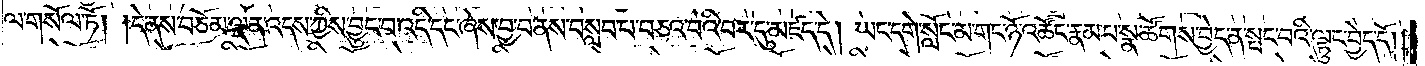ལ་གསོལ་ཏོ། །དེ་ནས་བཅོམ་ལྡན་འདས་ཀྱིས་བྱུང་བ་འདི་དང་ཞེས་བྱ་བ་ནས་བསླབ་པ་བཅའ་བའི་བར་དུ་མཛད་དེ། ཡང་དགེ་སློང་མ་གང་ཉོ་འཚོང་རྣམ་པ་སྣ་ཚོགས་བྱེད་ན་སྤང་བའི་ལྟུང་བྱེད་དོ། །
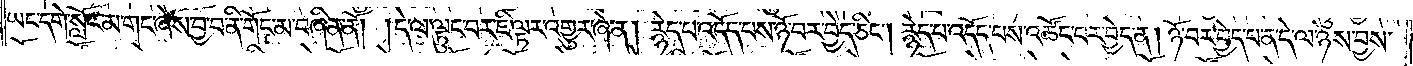ཡང་དགེ་སློང་མ་གང་ཞེས་བྱ་བ་ནི་གོང་མ་བཞིན་ནོ། །དེ་ལ་ལྟུང་བར་ཇི་ལྟར་འགྱུར་ཞེ་ན། རྙེད་པ་འདོད་པས་ཉོ་བར་བྱེད་ཅིང༌། རྙེད་པ་འདོད་པས་འཚོང་བར་བྱེད་ན། ཉོ་བར་བྱེད་པ་ན་དེ་ལ་ཉེས་བྱས་
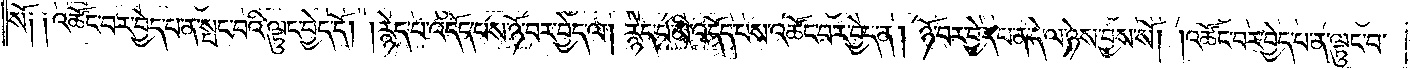སོ༑ ༑འཚོང་བར་བྱེད་པ་ན་སྤང་བའི་ལྟུང་བྱེད་དོ། །རྙེད་པ་འདོད་པས་ཉོ་བར་བྱེད་ལ། རྙེད་པ་མི་འདོད་པས་འཚོང་བར་བྱེད་ན། ཉོ་བར་བྱེད་པ་ན་དེ་ལ་ཉེས་བྱས་སོ། །འཚོང་བར་བྱེད་པ་ན་ལྟུང་བ་
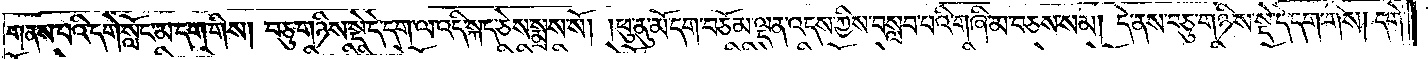གནས་པའི་དགེ་སློང་མ་དག་གིས། བཅུ་གཉིས་སྡེ་དེ་དག་ལ་འདི་སྐད་ཅེས་སྨྲས་སོ། །ཕུ་ནུ་མོ་དག་བཅོམ་ལྡན་འདས་ཀྱིས་བསླབ་པའི་གཞི་མ་བཅས་སམ། དེ་ནས་བཅུ་གཉིས་སྡེ་དེ་དག་གིས། དགེ་
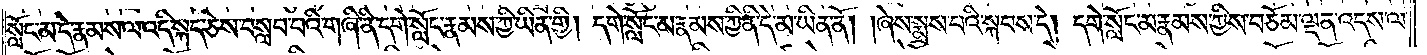སློང་མ་དེ་རྣམས་ལ་འདི་སྐད་ཅེས་བསླབ་པའི་གཞི་ནི་དགེ་སློང་རྣམས་ཀྱི་ཡིན་གྱི། དགེ་སློང་མ་རྣམས་ཀྱི་ནི་དེ་མ་ཡིན་ནོ། །ཞེས་སྨྲས་པའི་སྐབས་དེ། དགེ་སློང་མ་རྣམས་ཀྱིས་བཅོམ་ལྡན་འདས་ལ་
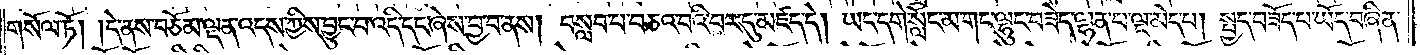གསོལ་ཏོ། །དེ་ནས་བཅོམ་ལྡན་འདས་ཀྱིས་བྱུང་བ་འདི་དང་ཞེས་བྱ་བ་ནས། བསླབ་པ་བཅའ་བའི་བར་དུ་མཛད་དེ། ཡང་དགེ་སློང་མ་གང་ལྷུང་བཟེད་ལྷན་པ་ལྔ་མེད་པ། སྤྱད་བཟོད་པ་ཡོད་བཞིན་
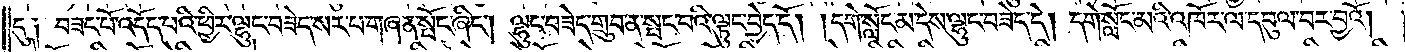དུ༑ བཟང་པོ་འདོད་པའི་ཕྱིར་ལྷུང་བཟེད་སར་པ་གཞན་སྤོང་ཞིང༌། ལྷུང་བཟེད་གྲུབ་ན་སྤང་བའི་ལྟུང་བྱེད་དོ། །དགེ་སློང་མ་དེས་ལྷུང་བཟེད་དེ། དགེ་སློང་མའི་འཁོར་ལ་དབུལ་བར་བྱའོ། །
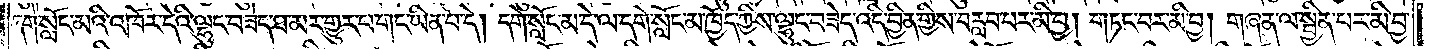དགེ་སློང་མའི་འཁོར་དེའི་ལྷུང་བཟེད་ཐ་མར་གྱུར་པ་གང་ཡིན་པ་དེ། དགེ་སློང་མ་དེ་ལ་དགེ་སློང་མ་ཁྱོད་ཀྱིས་ལྷུང་བཟེད་འདི་བྱིན་གྱིས་བརླབ་པར་མི་བྱ། གཏང་བར་མི་བྱ། གཞན་ལ་སྦྱིན་པར་མི་བྱ་
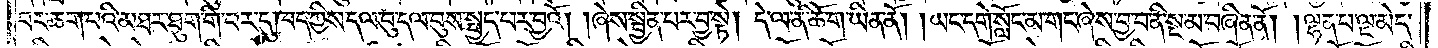བར་ཆག་པའི་མཐར་ཐུག་གི་བར་དུ་ཁད་ཀྱིས་དལ་བུ་དལ་བུས་སྤྱད་པར་བྱའོ། །ཞེས་སྦྱིན་པར་བྱ་སྟེ། དེ་ལ་ནི་ཆོ་ག་ཡིན་ནོ། །ཡང་དགེ་སློང་མ་གང་ཞེས་བྱ་བ་ནི་སྔ་མ་བཞིན་ནོ། །ལྷན་པ་ལྔ་མེད་
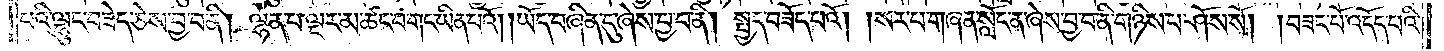པའི་ལྷུང་བཟེད་ཅེས་བྱ་བ་ནི། ལྷན་པ་ལྔར་མ་ཚང་བ་གང་ཡིན་པའོ། །ཡོད་བཞིན་དུ་ཞེས་བྱ་བ་ནི། སྤྱད་བཟོད་པའོ། །སར་པ་གཞན་སློང་ན་ཞེས་བྱ་བ་ནི་གཉིས་པ་ཤོས་སོ། །བཟང་པོ་འདོད་པའི་
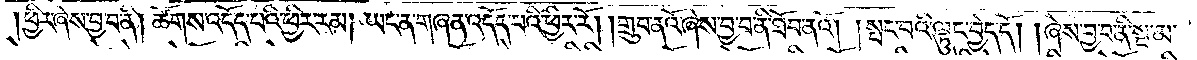ཕྱིར་ཞེས་བྱ་བ་ནི། ཚོགས་འདོད་པའི་ཕྱིར་རམ། ཡང་ན་གཞན་འདོད་པའི་ཕྱིར་རོ། །གྲུབ་ནའོ་ཞེས་བྱ་བ་ནི་ཐོབ་ནའོ། །སྤང་བའི་ལྟུང་བྱེད་དོ། །ཞེས་བྱ་བ་ནི་སྔ་མ་
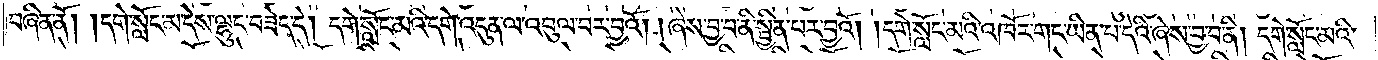བཞིན་ནོ། །དགེ་སློང་མ་དེས་ལྷུང་བཟེད་དེ། དགེ་སློང་མའི་དགེ་འདུན་ལ་འབུལ་བར་བྱའོ། ། ཞེས་བྱ་བ་ནི་སྦྱིན་པར་བྱའོ། ། དགེ་སློང་མའི་འཁོར་གང་ཡིན་པ་དེའི་ཞེས་བྱ་བ་ནི། དགེ་སློང་མའི་
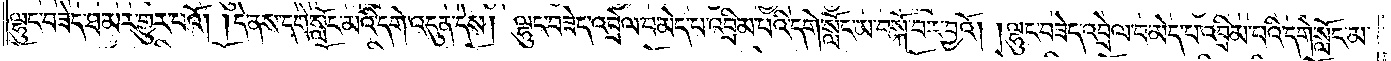ལྷུང་བཟེད་ཐ་མར་གྱུར་པའོ། །དེ་ནས་དགེ་སློང་མའི་དགེ་འདུན་དེས། ལྷུང་བཟེད་འབྲེལ་བ་མེད་པ་འབྲིམ་པའི་དགེ་སློང་མ་བསྐོ་བར་བྱའོ། །ལྷུང་བཟེད་འབྲེལ་བ་མེད་པ་འབྲིམ་པའི་དགེ་སློང་མ་
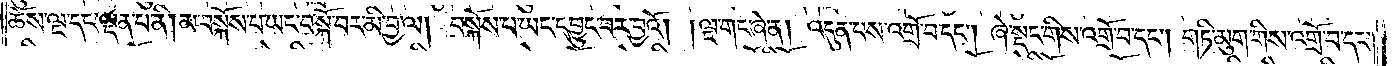ཆོས་ལྔ་དང་ལྡན་པ་ནི། མ་བསྐོས་པ་ཡང་བསྐོ་བར་མི་བྱ་ལ། བསྐོས་པ་ཡང་དབྱུང་བར་བྱའོ། །ལྔ་གང་ཞེ་ན། འདུན་པས་འགྲོ་བ་དང༌། ཞེ་སྡང་གིས་འགྲོ་བ་དང༌། གཏི་མུག་གིས་འགྲོ་བ་དང༌།
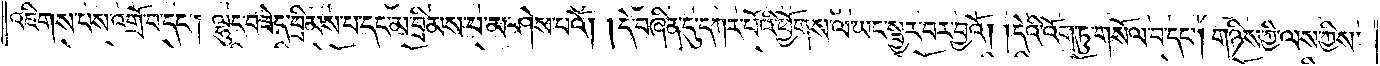འཇིགས་པས་འགྲོ་བ་དང༌། ལྷུང་བཟེད་བྲིམས་པ་དང་མ་བྲིམས་པ་མ་ཤེས་པའོ། །དེ་བཞིན་དུ་དཀར་པོའི་ཕྱོགས་ལ་ཡང་སྦྱར་བར་བྱའོ། །དེའི་འོག་ཏུ་གསོལ་བ་དང༌། གཉིས་ཀྱི་ལས་ཀྱིས་
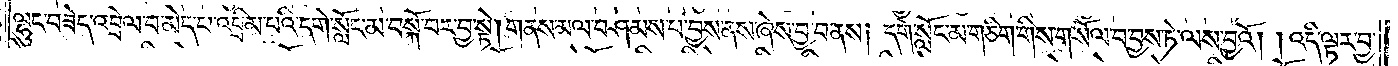ལྷུང་བཟེད་འབྲེལ་བ་མེད་པ་འབྲིམ་པའི་དགེ་སློང་མ་བསྐོ་བར་བྱ་སྟེ། གནས་མལ་བཤམས་པ་བྱས་ནས་ཞེས་བྱ་བ་ནས། དགེ་སློང་མ་གཅིག་གིས་གསོལ་བ་བྱས་ཏེ་ལས་བྱའོ། །འདི་ལྟར་བྱ་
